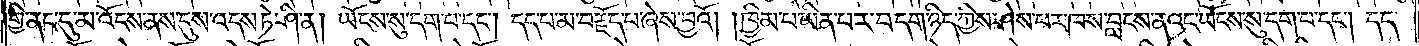གྱི་ནང་དུ་མ་འོངས་ནས་དུས་འདས་ཏེ་ཤི་ན། ཡོངས་སུ་དག་པ་དང༌། དད་པ་མ་བརྗོད་པ་ཞེས་བྱའོ། །ཁྱིམ་པ་ཡིན་པར་བདག་ཉིད་ཀྱིས་ཤེས་པར་ཁས་བླངས་ནའང་ཡོངས་སུ་དག་པ་དང༌། དད་
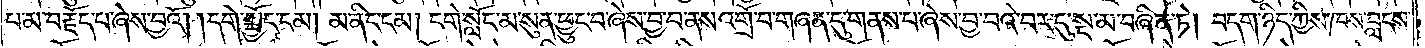པ་མ་བརྗོད་པ་ཞེས་བྱའོ། །དགེ་སྦྱོང་ངམ། མ་ནིང་ངམ། དགེ་སློང་མ་སུན་ཕྱུང་བ་ཞེས་བྱ་བ་ནས་འགྲོ་བ་གཞན་དུ་གནས་པ་ཞེས་བྱ་བའི་བར་དུ་སྔ་མ་བཞིན་ཏེ། བདག་ཉིད་ཀྱིས་ཁས་བླངས་
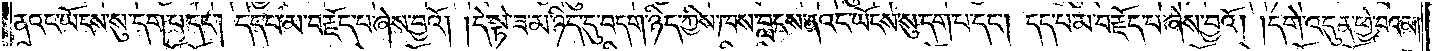ནའང་ཡོངས་སུ་དག་པ་དང༌། དད་པ་མ་བརྗོད་པ་ཞེས་བྱའོ། །དེ་སྟེ་ཟ་མ་ཉིད་དུ་བདག་ཉིད་ཀྱིས་ཁས་བླངས་ནའང་ཡོངས་སུ་དག་པ་དང༌། དད་པ་མ་བརྗོད་པ་ཞེས་བྱའོ། །དགེ་འདུན་ཕྱེ་བའམ།
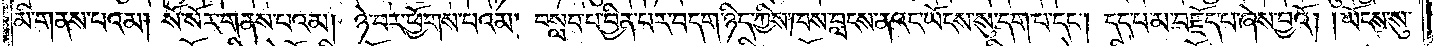མི་གནས་པའམ། སོ་སོར་གནས་པའམ། ཉེ་བར་ཕྱོགས་པའམ། བསླབ་པ་བྱིན་པར་བདག་ཉིད་ཀྱིས་ཁས་བླངས་ནའང་ཡོངས་སུ་དག་པ་དང༌། དད་པ་མ་བརྗོད་པ་ཞེས་བྱའོ། །ཡོངས་སུ་
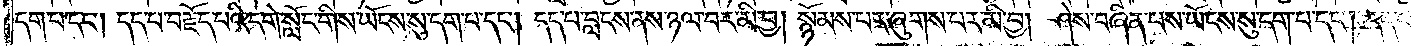དག་པ་དང༌། དད་པ་བརྗོད་པའི་དགེ་སློང་གིས་ཡོངས་སུ་དག་པ་དང༌། དད་པ་བླངས་ནས་ཉལ་བར་མི་བྱ། སྙོམས་པར་ཞུགས་པར་མི་བྱ། ཤེས་བཞིན་པས་ཡོངས་སུ་དག་པ་དང༌། དད་པ་
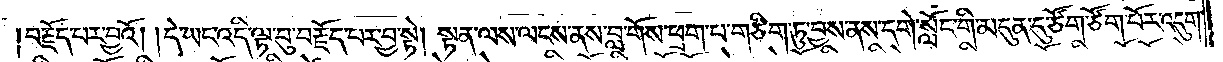བརྗོད་པར་བྱའོ། །དེ་ཡང་འདི་ལྟ་བུ་བརྗོད་པར་བྱ་སྟེ། སྟན་ལས་ལངས་ནས་བླ་གོས་ཕྲག་པ་གཅིག་ཏུ་བྱས་ནས་དགེ་སློང་གི་མདུན་དུ་ཙོག་ཙོག་པོར་འདུག་
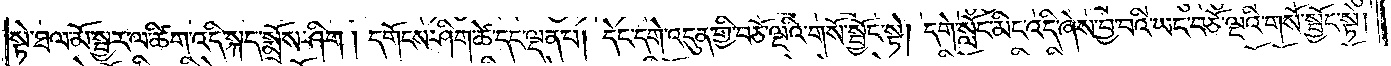སྟེ་ཐལ་མོ་སྦྱར་ལ་ཚིག་འདི་སྐད་སྨྲོས་ཤིག །དགོངས་ཤིག་ཚེ་དང་ལྡན་པ། དེང་དགེ་འདུན་གྱི་བཅོ་ལྔའི་གསོ་སྦྱོང་སྟེ། དགེ་སློང་མིང་འདི་ཞེས་བྱ་བའི་ཡང་བཅོ་ལྔའི་གསོ་སྦྱོང་སྟེ།
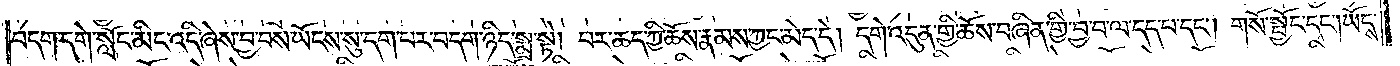བདག་དགེ་སློང་མིང་འདི་ཞེས་བྱ་བས་ཡོངས་སུ་དག་པར་བདག་ཉིད་སྨྲ་སྟེ། བར་ཆད་ཀྱི་ཆོས་རྣམས་ཀྱང་མེད་དེ། དགེ་འདུན་གྱི་ཆོས་བཞིན་གྱི་བྱ་བ་ལ་དད་པ་དང༌། གསོ་སྦྱོང་དང༌། ཡོངས་
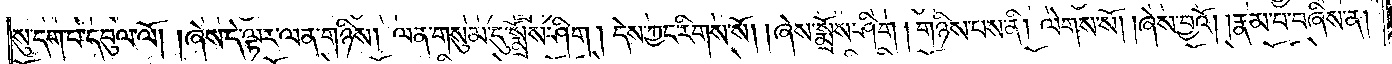སུ་དག་པ་དབུལ་ལོ། །ཞེས་དེ་ལྟར་ལན་གཉིས། ལན་གསུམ་དུ་སྨྲོས་ཤིག །དེས་ཀྱང་རིགས་སོ། །ཞེས་སྨྲོས་ཤིག །གཉིས་པས་ནི། ལེགས་སོ། །ཞེས་བྱའོ། །རྣམ་པ་བཞིས་ན།
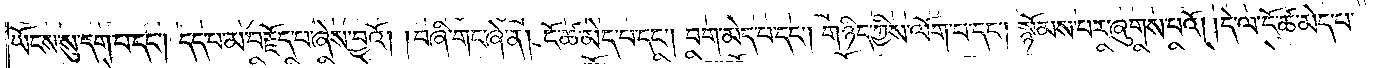ཡོངས་སུ་དག་པ་དང༌། དད་པ་མ་བརྗོད་པ་ཞེས་བྱའོ། །བཞི་གང་ཞེ་ན། ངོ་ཚ་མེད་པ་དང༌། བག་མེད་པ་དང༌། གཉིད་ཀྱིས་ལོག་པ་དང༌། སྙོམས་པར་ཞུགས་པའོ། །དེ་ལ་ངོ་ཚ་མེད་པ་
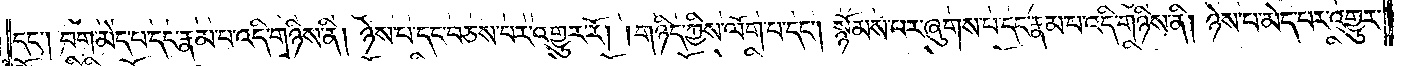དང༌། བག་མེད་པ་དང་རྣམ་པ་འདི་གཉིས་ནི། ཉེས་པ་དང་བཅས་པར་འགྱུར་རོ། །གཉིད་ཀྱིས་ལོག་པ་དང༌། སྙོམས་པར་ཞུགས་པ་དང་རྣམ་པ་འདི་གཉིས་ནི། ཉེས་པ་མེད་པར་འགྱུར་
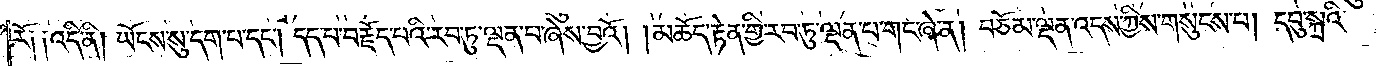རོ༑ ༑འདི་ནི། ཡོངས་སུ་དག་པ་དང༌། དད་པ་བརྗོད་པའི་རབ་ཏུ་ལྡན་པ་ཞེས་བྱའོ། །མཆོད་རྟེན་གྱི་རབ་ཏུ་ལྡན་པ་གང་ཞེ་ན། བཅོམ་ལྡན་འདས་ཀྱིས་གསུངས་པ། དབུ་སྐྲའི་
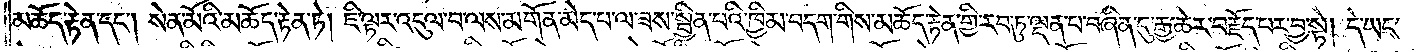མཆོད་རྟེན་དང༌། སེན་མོའི་མཆོད་རྟེན་ཏེ། ཇི་ལྟར་འདུལ་བ་ལས་མགོན་མེད་པ་ལ་ཟས་སྦྱིན་པའི་ཁྱིམ་བདག་གིས་མཆོད་རྟེན་གྱི་རབ་ཏུ་ལྡན་པ་བཞིན་དུ་རྒྱ་ཆེར་བརྗོད་པར་བྱ་སྟེ། དེ་ཡང་
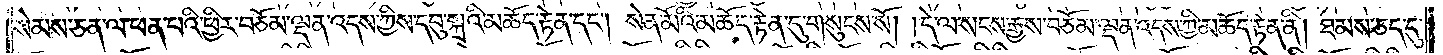སེམས་ཅན་ལ་ཕན་པའི་ཕྱིར་བཅོམ་ལྡན་འདས་ཀྱིས་དབུ་སྐྲའི་མཆོད་རྟེན་དང༌། སེན་མོའི་མཆོད་རྟེན་དུ་གསུངས་སོ། །དེ་ལ་སངས་རྒྱས་བཅོམ་ལྡན་འདས་ཀྱི་མཆོད་རྟེན་ནི། ཐམས་ཅད་དུ་
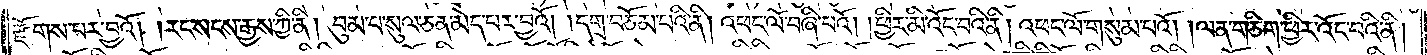རྫོགས་པར་བྱའོ། །རང་སངས་རྒྱས་ཀྱི་ནི། བུམ་པ་སུལ་ཅན་མེད་པར་བྱའོ། །དགྲ་བཅོམ་པའི་ནི། འཕང་ལོ་བཞི་པའོ། །ཕྱིར་མི་འོང་བའི་ནི། འཕང་ལོ་གསུམ་པའོ། །ལན་གཅིག་ཕྱིར་འོང་བའི་ནི།
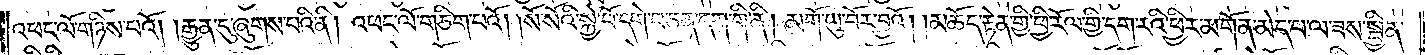འཕང་ལོ་གཉིས་པའོ། །རྒྱུན་དུ་ཞུགས་པའི་ནི། འཕང་ལོ་གཅིག་པའོ། །སོ་སོའི་སྐྱེ་བོ་དགེ་བ་ཅན་དག་གི་ནི། མགོ་ཡུ་བོར་བྱའོ། །མཆོད་རྟེན་གྱི་ཕྱི་རོལ་གྱི་དག་རའི་ཕྱིར་མགོན་མེད་པ་ལ་ཟས་སྦྱིན་
